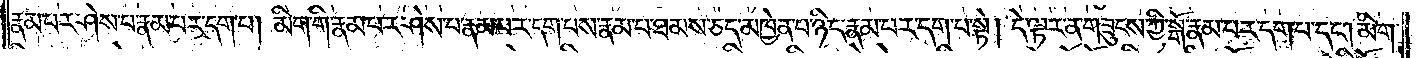རྣམ་པར་ཤེས་པ་རྣམ་པར་དག་པ། མིག་གི་རྣམ་པར་ཤེས་པ་རྣམ་པར་དག་པས་རྣམ་པ་ཐམས་ཅད་མཁྱེན་པ་ཉིད་རྣམ་པར་དག་པ་སྟེ། དེ་ལྟར་ན་གཟུངས་ཀྱི་སྒོ་རྣམ་པར་དག་པ་དང༌། མིག་
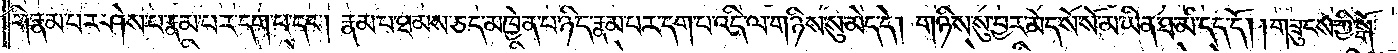གི་རྣམ་པར་ཤེས་པ་རྣམ་པར་དག་པ་དང༌། རྣམ་པ་ཐམས་ཅད་མཁྱེན་པ་ཉིད་རྣམ་པར་དག་པ་འདི་ལ་གཉིས་སུ་མེད་དེ། གཉིས་སུ་བྱར་མེད་སོ་སོ་མ་ཡིན་ཐ་མི་དད་དོ། །གཟུངས་ཀྱི་སྒོ་
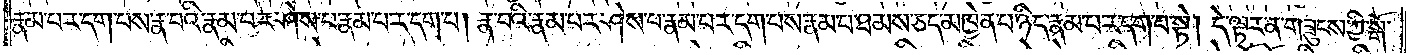རྣམ་པར་དག་པས་རྣ་བའི་རྣམ་པར་ཤེས་པ་རྣམ་པར་དག་པ། རྣ་བའི་རྣམ་པར་ཤེས་པ་རྣམ་པར་དག་པས་རྣམ་པ་ཐམས་ཅད་མཁྱེན་པ་ཉིད་རྣམ་པར་དག་པ་སྟེ། དེ་ལྟར་ན་གཟུངས་ཀྱི་སྒོ་
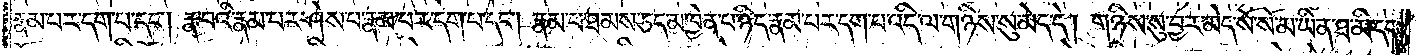རྣམ་པར་དག་པ་དང༌། རྣ་བའི་རྣམ་པར་ཤེས་པ་རྣམ་པར་དག་པ་དང༌། རྣམ་པ་ཐམས་ཅད་མཁྱེན་པ་ཉིད་རྣམ་པར་དག་པ་འདི་ལ་གཉིས་སུ་མེད་དེ། གཉིས་སུ་བྱར་མེད་སོ་སོ་མ་ཡིན་ཐ་མི་དད་
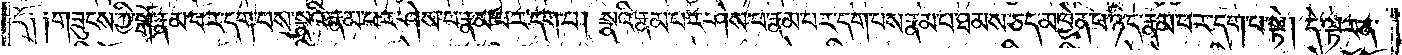དོ༑ ༑གཟུངས་ཀྱི་སྒོ་རྣམ་པར་དག་པས་སྣའི་རྣམ་པར་ཤེས་པ་རྣམ་པར་དག་པ། སྣའི་རྣམ་པར་ཤེས་པ་རྣམ་པར་དག་པས་རྣམ་པ་ཐམས་ཅད་མཁྱེན་པ་ཉིད་རྣམ་པར་དག་པ་སྟེ། དེ་ལྟར་ན་
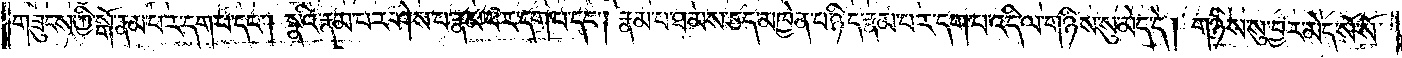གཟུངས་ཀྱི་སྒོ་རྣམ་པར་དག་པ་དང༌། སྣའི་རྣམ་པར་ཤེས་པ་རྣམ་པར་དག་པ་དང༌། རྣམ་པར་ཐམས་ཅད་མཁྱེན་པ་ཉིད་རྣམ་པར་དག་པ་འདི་ལ་གཉིས་སུ་མེད་དེ། གཉིས་སུ་བྱར་མེད་སོ་སོ་
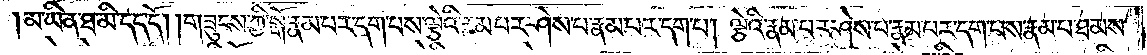མ་ཡིན་ཐ་མི་དད་དོ། །གཟུངས་ཀྱི་སྒོ་རྣམ་པར་དག་པས་ལྕེའི་རྣམ་པར་ཤེས་པ་རྣམ་པར་དག་པ། ལྕེའི་རྣམ་པར་ཤེས་པར་རྣམ་པར་དག་པས་རྣམ་པ་ཐམས་
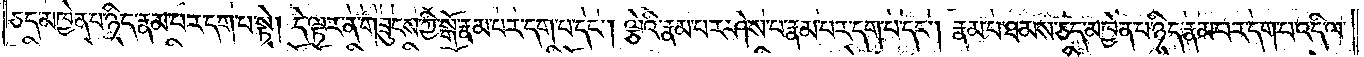ཅད་མཁྱེན་པ་ཉིད་རྣམ་པར་དག་པ་སྟེ། དེ་ལྟར་ན་གཟུངས་ཀྱི་སྒོ་རྣམ་པར་དག་པ་དང༌། ལྕེའི་རྣམ་པར་ཤེས་པ་རྣམ་པར་དག་པ་དང༌། རྣམ་པ་ཐམས་ཅད་མཁྱེན་པ་ཉིད་རྣམ་པར་དག་པ་འདི་ལ་
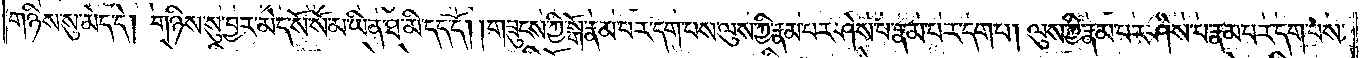གཉིས་སུ་མེད་དེ། གཉིས་སུ་བྱར་མེད་སོ་སོ་མ་ཡིན་ཐ་མི་དད་དོ། །གཟུངས་ཀྱི་སྒོ་རྣམ་པར་དག་པས་ལུས་ཀྱི་རྣམ་པར་ཤེས་པ་རྣམ་པར་དག་པ། ལུས་ཀྱི་རྣམ་པར་ཤེས་པ་རྣམ་པར་དག་པས་
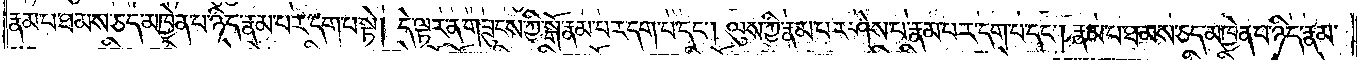རྣམ་པ་ཐམས་ཅད་མཁྱེན་པ་ཉིད་རྣམ་པར་དག་པ་སྟེ། དེ་ལྟར་ན་གཟུངས་ཀྱི་སྒོ་རྣམ་པར་དག་པ་དང༌། ལུས་ཀྱི་རྣམ་པར་ཤེས་པ་རྣམ་པར་དག་པ་དང༌། རྣམ་པ་ཐམས་ཅད་མཁྱེན་པ་ཉིད་རྣམ་
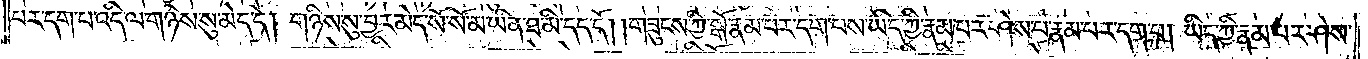པར་དག་པ་འདི་ལ་གཉིས་སུ་མེད་དེ། གཉིས་སུ་བྱར་མེད་སོ་སོ་མ་ཡིན་ཐ་མི་དད་དོ། །གཟུངས་ཀྱི་སྒོ་རྣམ་པར་དག་པས་ཡིད་ཀྱི་རྣམ་པར་ཤེས་པ་རྣམ་པར་དག་པ། ཡིད་ཀྱི་རྣམ་པར་ཤེས་
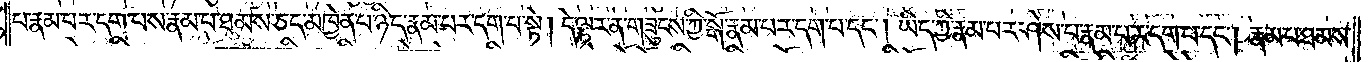པ་རྣམ་པར་དག་པས་རྣམ་པ་ཐམས་ཅད་མཁྱེན་པ་ཉིད་རྣམ་པར་དག་པ་སྟེ། དེ་ལྟར་ན་གཟུངས་ཀྱི་སྒོ་རྣམ་པར་དག་པ་དང༌། ཡིད་ཀྱི་རྣམ་པར་ཤེས་པ་རྣམ་པར་དག་པ་དང༌། རྣམ་པ་ཐམས་
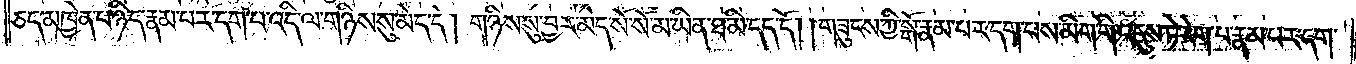ཅད་མཁྱེན་པ་ཉིད་རྣམ་པར་དག་པ་འདི་ལ་གཉིས་སུ་མེད་དེ། གཉིས་སུ་བྱར་མེད་སོ་སོ་མ་ཡིན་ཐ་མི་དད་དོ། །གཟུངས་ཀྱི་སྒོ་རྣམ་པར་དག་པས་མིག་གི་འདུས་ཏེ་རེག་པ་རྣམ་པར་དག་
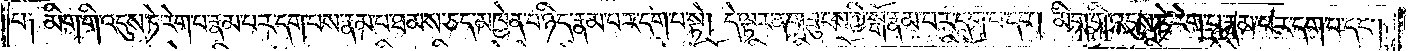པ༑ མིག་གི་འདུས་ཏེ་རེག་པ་རྣམ་པར་དག་པས་རྣམ་པ་ཐམས་ཅད་མཁྱེན་པ་ཉིད་རྣམ་པར་དག་པ་སྟེ། དེ་ལྟར་ན་གཟུངས་ཀྱི་སྒོ་རྣམ་པར་དག་པ་དང༌། མིག་གི་འདུས་ཏེ་རེག་པ་རྣམ་པར་དག་པ་དང༌།
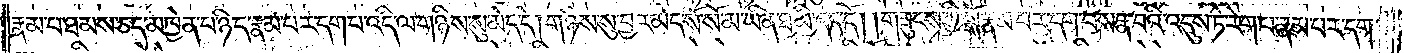རྣམ་པ་ཐམས་ཅད་མཁྱེན་པ་ཉིད་རྣམ་པར་དག་པ་འདི་ལ་གཉིས་སུ་མེད་དེ། གཉིས་སུ་བྱར་མེད་སོ་སོ་མ་ཡིན་ཐ་མི་དད་དོ། །གཟུངས་ཀྱི་སྒོ་རྣམ་པར་དག་པས་རྣ་བའི་འདུས་ཏེ་རེག་པ་རྣམ་པར་དག་
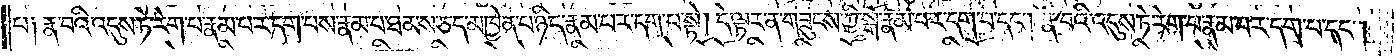པ༑ རྣ་བའི་འདུས་ཏེ་རེག་པ་རྣམ་པར་དག་པས་རྣམ་པ་ཐམས་ཅད་མཁྱེན་པ་ཉིད་རྣམ་པར་དག་པ་སྟེ། དེ་ལྟར་ན་གཟུངས་ཀྱི་སྒོ་རྣམ་པར་དག་པ་དང༌། རྣ་བའི་འདུས་ཏེ་རེག་པ་རྣམ་པར་དག་པ་དང༌།
